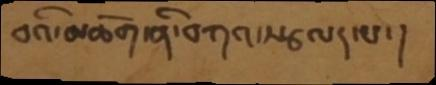བའི་མཆོག་ནི་བཀའ་སྩལད་པ་།
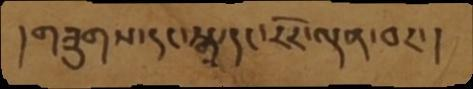། གཟུགས་དང་སྒྲ་དང་རོར་ལྡན་བར་ །
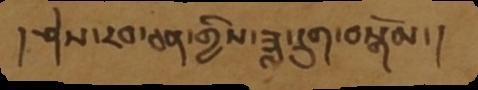། ཤེས་རབ་ཅན་གྱིས་ཟླ་དྲུག་བསྒོམ་ །
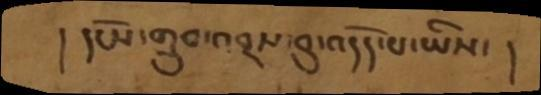།  དངོས་གྲུབ་འབྲས་བུ་འདོད་པ་ཡིས་ །
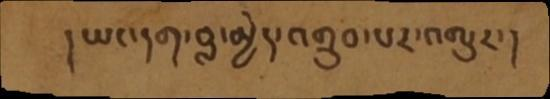། ཡང་དག་བླ་མྱེད་འགྲུབ་པར་འགྱུར་།
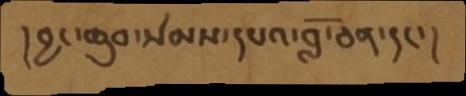།བྱང་ཆུབ་སེམས་དཔའ་བློ་ཅན་དང་།
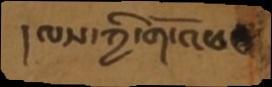།ལས་ཀྱི་གོ་འཕང
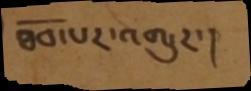ཐོབ་པར་འགྱུར་ །
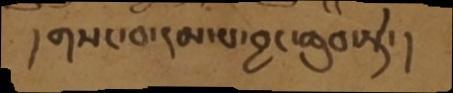། གསང་བ་དམ་པ་བྱང་ཆུབ་སྟེ་ །
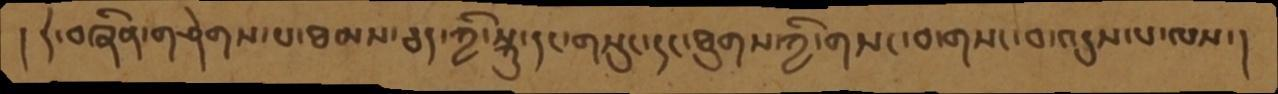།  དེ་བཞིན་གཤེགས་པ་ཐམས་ཅད་ཀྱི་སྐུ་དང་གསུང་དང་ཐུགས་ཀྱི་གསང་བ་གསང་བ་འདུས་པ་ལས་།
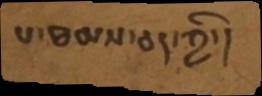པ་ཐམས་ཅད་ཀྱི་།
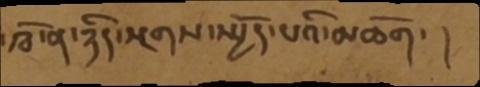་ཁོ་ན་ཉིད་སྔགས་སྤྱོད་པའི་མཆོག་ །
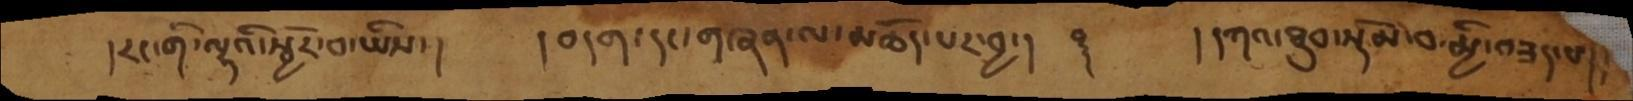།རང་གི་ལྷའི་སྦྱོར་བ་ཡིས་།   །བདག་དང་གཞན་ལ་མཆོད་པར་བྱ་།    ࿑    །དཀའ་ཐུབ་སྡོམ་བ་མྱི་བཟད་པ།
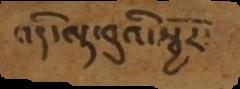འདི་ལྟ་བུའི་སྦྱོར་
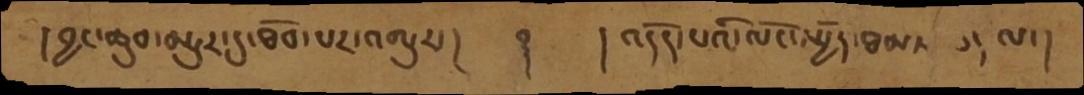།བྱང་ཆུབ་མྱུར་དུ་ཐོབ་པར་འགྱུར་།     ࿑    །འདོད་པའི་ལོང་སྤྱོད་ཐམས་ཅད་ལ་།
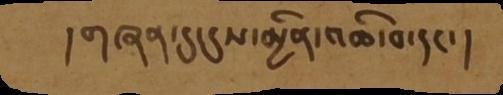།གཞན་དུ་དུས་མྱིན་འཆི་བ་དང་།
